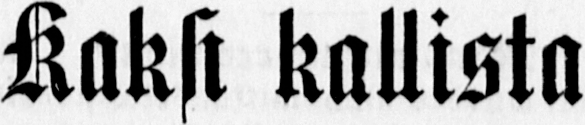Kaksi Kallista
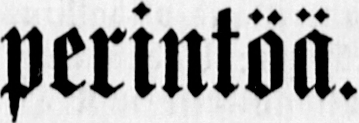perintöä.
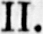II.
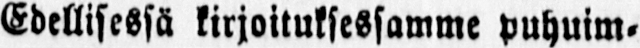Edellisessä kirjoituksesamme puhuim-
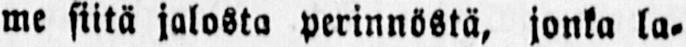me siitä jalosta perinnöstä, jonka lakiemme, erittäin perustuslakimme muo-
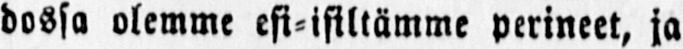dossa olemme esi-isiltämme perineet, ja
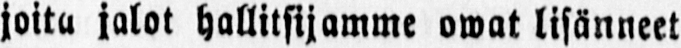joita jalot hallitsijamme owat lisänneet
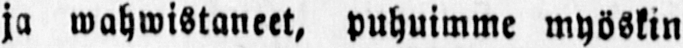ja wahwistaneet, puhuimme myöskin
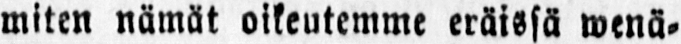miten nämät oikeutemme eräissä wenä-
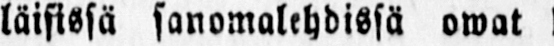laisissä sanomalehdissä owat herättä-
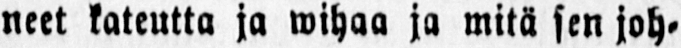neet kateutta ja wihaa ja mitä sen joh-
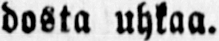dosta uhkaa.
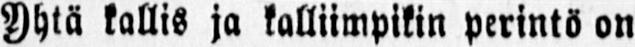Yhtä kallis ja kalliimpikin perintö on
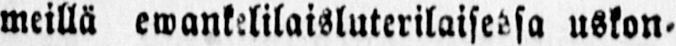meillä ewankelilaisluterilaiseesa usko-
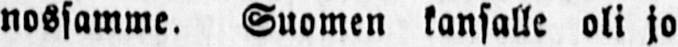nossamme. Suomen kansalle oli jo
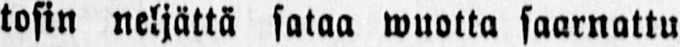tosin neljättä sataa wuotta saarnattu
